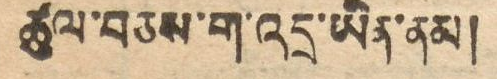ཚུལ་བཅས་ག་འདྲ་ཡིན་ནམ།
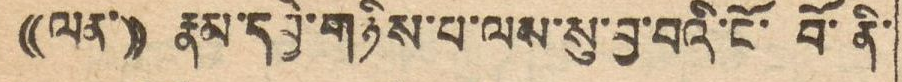((ལན་)) རྣམ་དབྱེ་གཉིས་པ་ལས་སུ་བྱ་བའི་ངོ་ བོ་ ནི་
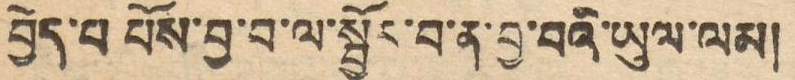བྱེད་པ པོས་བྱ་བ་ལ་སྦྱོར་བ་ན་བྱ་བའི་ཡུལ་ལམ།
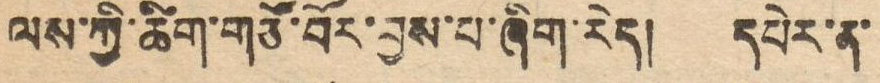ལས་ཀྱི་ཚིག་གཙོ་བོར་བྱས་པ་ཞིག་རེད། དཔེར་ན་
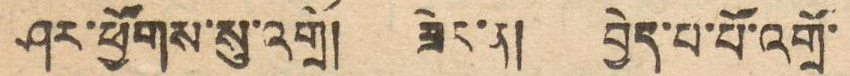ཤར་ཕྱོགས་སུ་འགྲོ། ཟེར་ན། བྱེད་པ་པོ་འགྲོ་
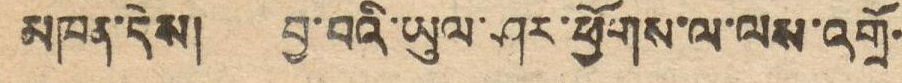མཁན་དེས། བྱ་བའི་ཡུལ་ཤར་ཕྱོགས་ལ་ལས་འགྲོ་
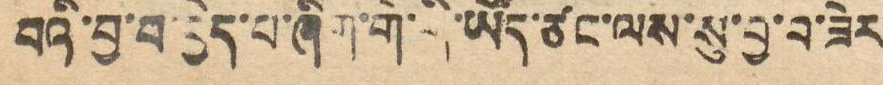བའི་བྱ་བ་བྱེད་པ་ཞིག་གི་ནི་ཡོད་ཙང་ལ་སུ་བྱ་བ་ཟེར
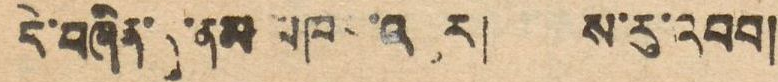དེ་བཞིན་དུ་ནམ་མཁར་འཕུར། ས་རུ་འབབ།
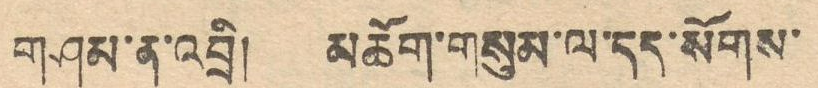གཤམ་ན་འབྲི། མཆོག་གསུམ་ལ་དད་སོགས་
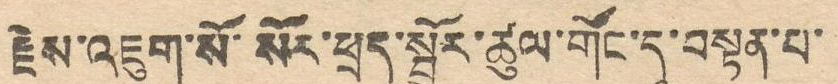རྗེས་འཇུག་སོ་སོར་ཕྲད་སྦྱོར་ཚུལ་གོང་དུ་བསྟན་པ་
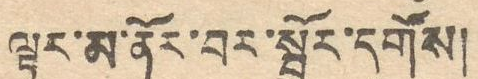ལྟར་མ་ནོར་བར་སྦྱོར་དགོས།
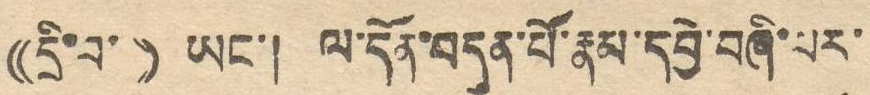((དྲི་བ་)) ཡང་། ལ་དོན་བདུན་པོ་རྣམ་དབྱེ་བཞི་པར་
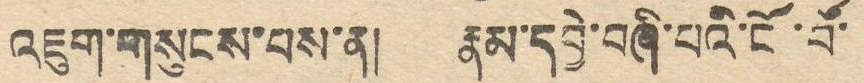འཇུག་གསུངས་པས་ན། རྣམ་དབྱེ་བཞི་པའི་ངོ་བོ་
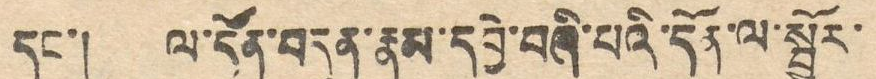དང་། ལ་དོན་བདུན་རྣམ་དབྱེ་བཞི་པའི་དོན་ལ་སྦྱོར་
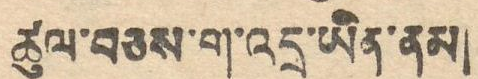ཚུལ་བཅས་ག་འདྲ་ཡིན་ནམ།
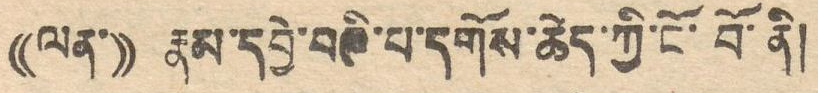((ལན་)) རྣམ་དབྱེ་བཞི་པ་དགོས་ཆེད་ཀྱི་ངོ་བོ་ནི།
